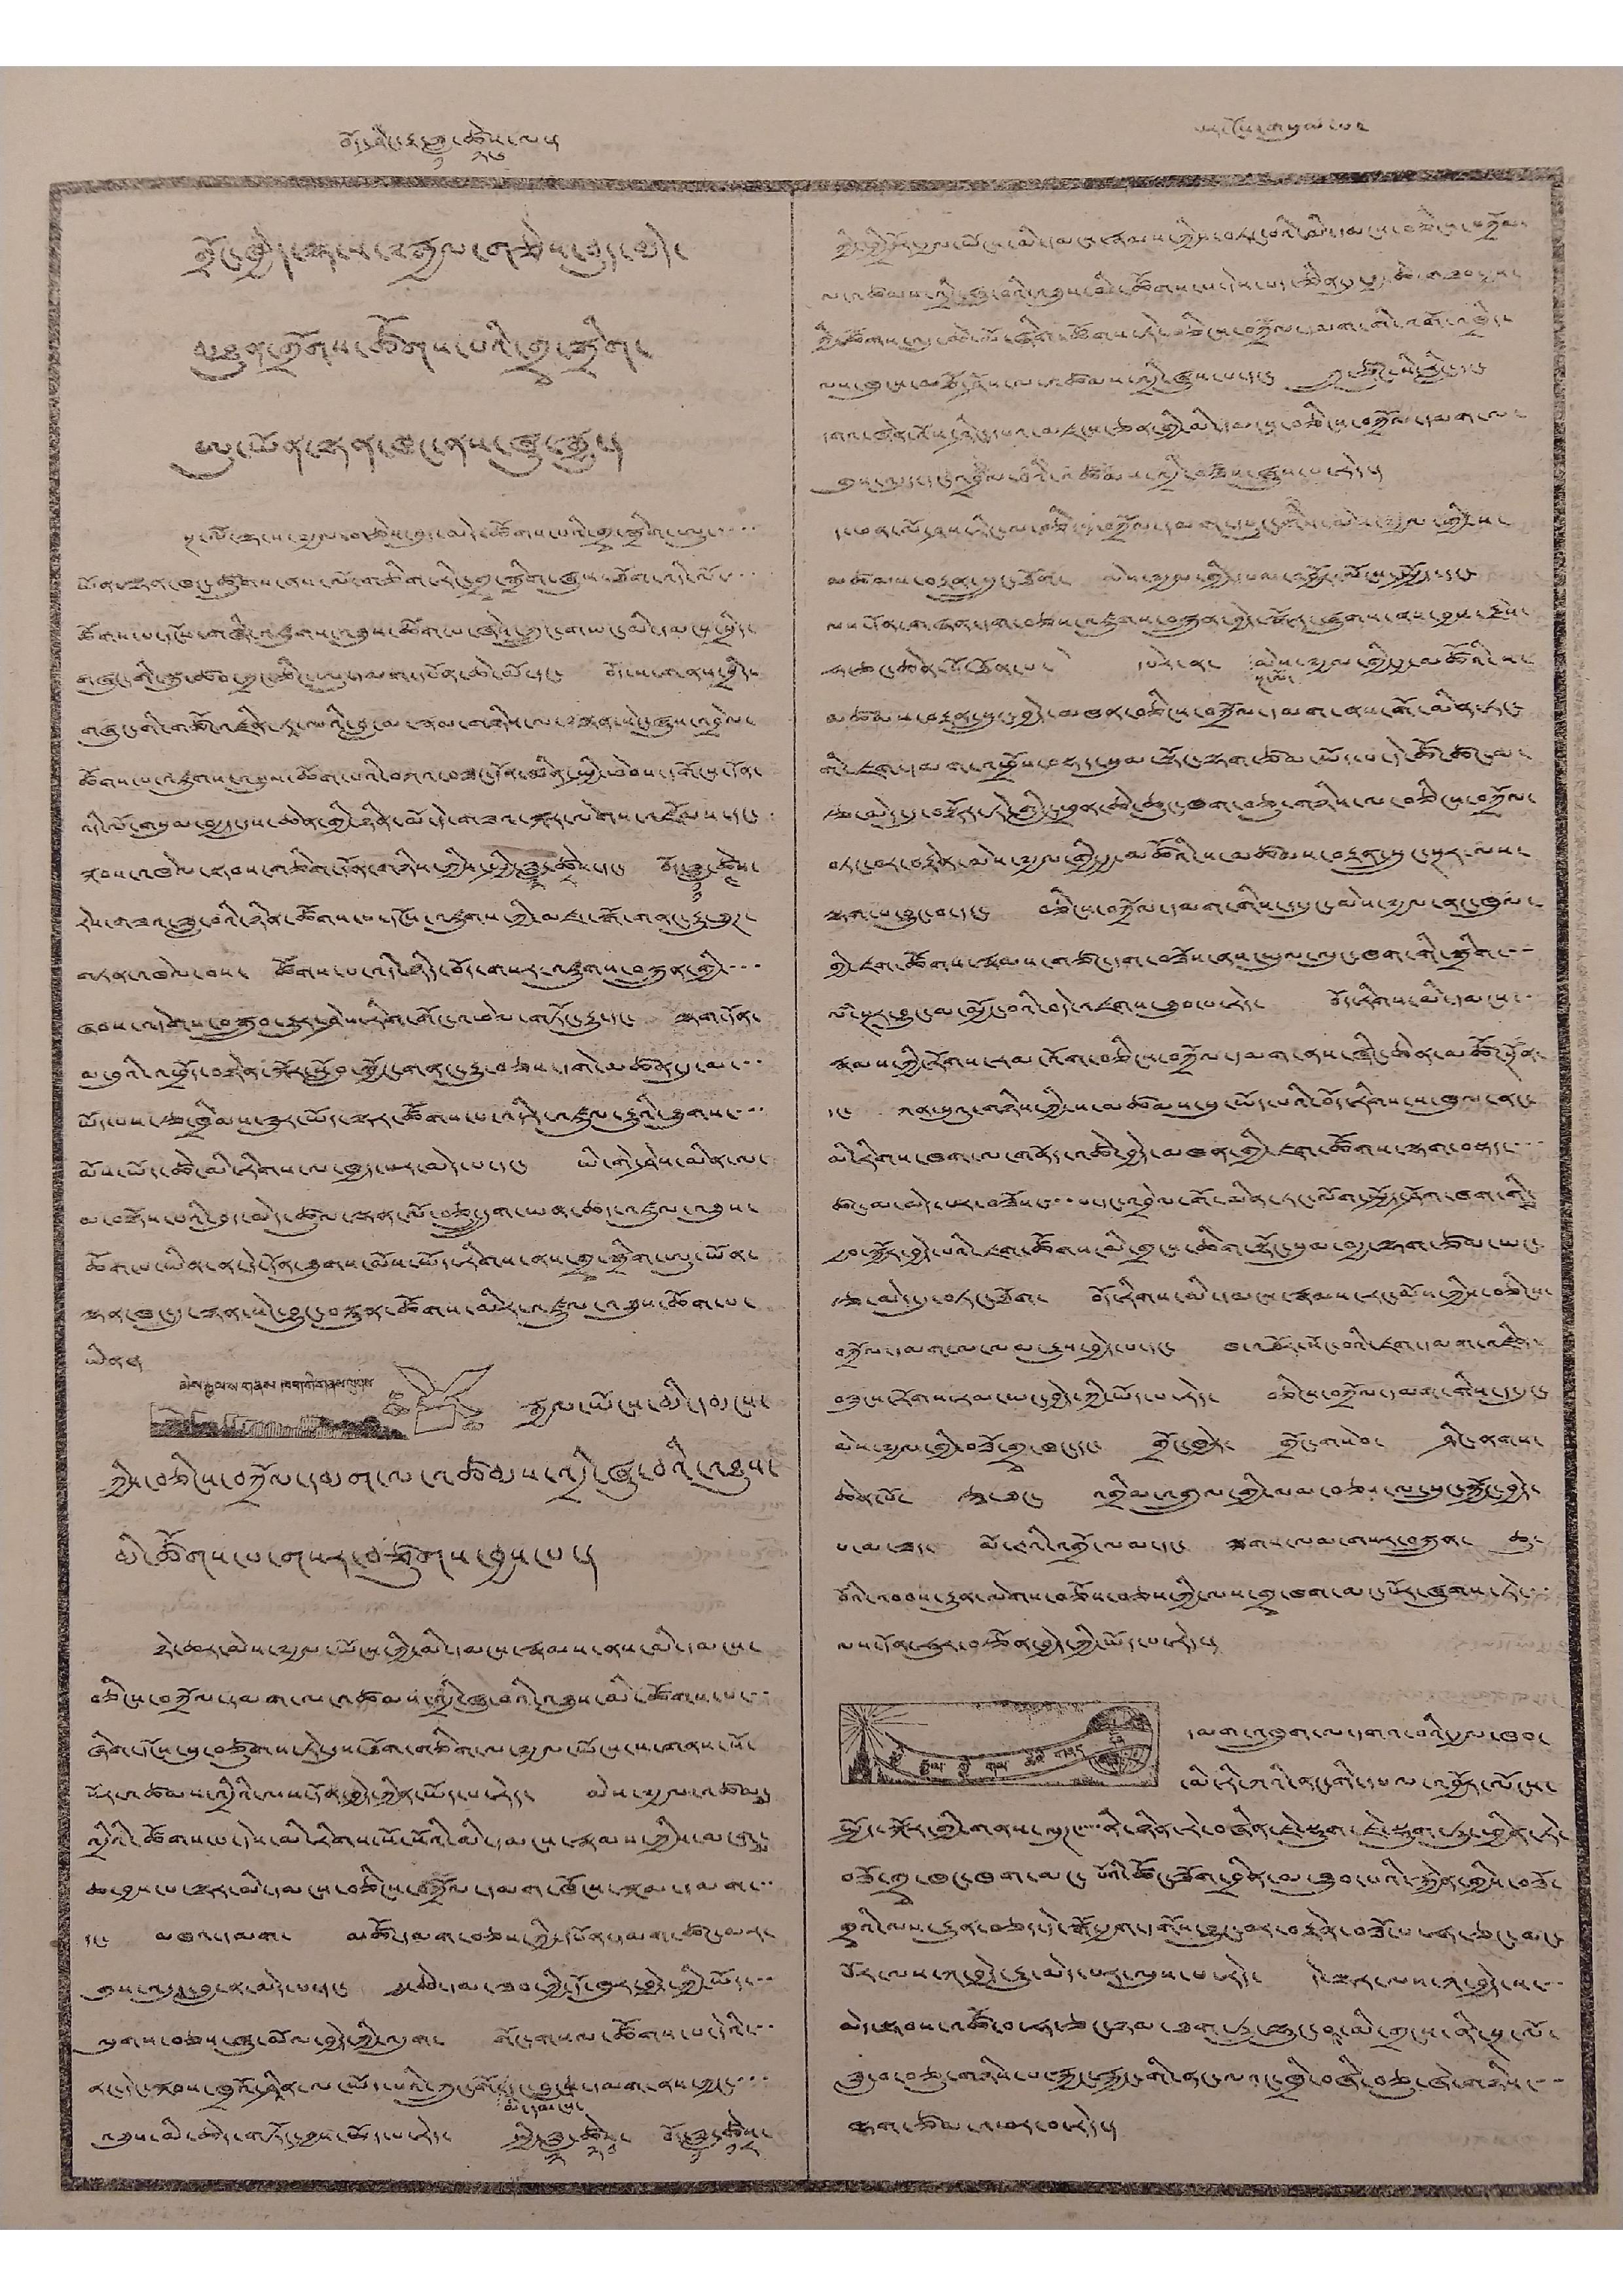བོད་ཤིང་རྟ་ཟླ་
༡
ཚེས་
༢༦
ལ་། པར་ངོས་གསུམ་པ་
གྲོང་ཁྱེར་ལྷ་ས་༸རྒྱལ་གཅེས་བུད་མེད་
མཐུན་གྲོགས་ཚོགས་པའི་གྲྭ་སྒྲིག་
ཨུ་ཡོན་ལྷན་ཁང་ནས་ཞུ་རྒྱུ་།
སྔ་ལོ་ལྷ་ས་༸རྒྱལ་གཅེས་བུད་མེད་ཚོགས་པའི་གྲྭ་སྒྲིག་ཨུ་་་་་
ཡོན་ལྷན་ཁང་ཚུགས་ནས་ལོ་གཅིག་རིང་གྲྭ་སྒྲིག་ཞུས་ཐོག་འདི་ལོ་་་་
ཚོགས་པ་དངོས་གཞི་འཛུགས་མཐུས་ཚོག་པ་ཞེས་ཀྲུང་གཡང་མི་དམངས་སྲིད་
གཞུང་གི་སྐུ་ཚབ་ཀྲང་ཅིང་ཨུ་དམག་དཔོན་ཆེ་མོ་དང་ བོད་ས་གནས་སྲིད་
གཞུང་གི་གཙོ་འཛིན་ཏཱ་ལའི་བླ་མ་རྣམ་གཉིས་ལ་སྙན་སེང་ཞུས་འབྲེལ་
ཚོགས་པ་འཛུགས་འཐུལ་ཚོག་པའི་བཀའ་དོན་མིན་སྤྱི་ཕེབས་དགོངས་དོན་
འདི་ལོ་གསུམ་བརྒྱད་དུས་ཆེན་གྱི་ཉིན་མོ་དེ་གཟའ་སྐར་ལེགས་འཛོམས་དང་ ་
སྐབས་འཁེལ་སྟབས་གཅིག་དོན་གཉིས་ཀྱིས་སྤྱི་ཟླ་
༣
ཚེས་
༨
དང་ བོད་ཟླ་
༡༡
ཚེས་
༤
རེས་གཟའ་ཟླ་བའི་ཉིན་ཚོགས་པ་དངོས་འཛུགས་ཀྱི་མཛད་སྒོ་གནང་རྒྱུ་ཐུཊ་
གཏན་འཁེལ་བས་ ཚོགས་པ་འདི་ཉིད་བོད་གསར་འཛུགས་བསྐྲུན་གྱི་་་་
ཞབས་འདེགས་བསྒྲུབས་རྒྱུར་ཤེས་རིག་གོང་འཕེལ་གཏོང་རྒྱུ་དང་ ལྷག་དོན་
མ་བུའི་འཕྲོད་བརྟེན་སྐོར་སློབ་སྦྱོང་གནང་རྒྱུ་བཅས་དགེ་མཚན་དུ་མ་་་
ཡོད་པས་རྩ་ཁྲིམས་ཟུར་ཡོད་ལྟར་ཚོགས་པ་འདིར་འཛུལ་རྒྱུའི་ཐུགས་་་་
མོས་ཡོད་ཚེ་མི་རིགས་ལ་ཁྱད་པར་མེད་པ་དང་ ཡི་གེ་ཤེས་མིན་ལ་
མ་བལྟོས་པའི་བུད་མེད་ཚུལ་ལྡན་པོ་བཅུ་དྲུག་ཡན་ཆད་འཛུལ་འཐུས་
ཆོག་པ་ཡིན་ན་དེ་དོན་ཐུགས་མོས་ཡོད་རིགས་ནས་གྲྭ་སྒྲིག་ཨུ་ཡོན་
ལྷན་ཁང་དུ་སྙན་སེང་བྱུང་བསྟུན་ཚོགས་མིར་འཛུལ་འཐུས་ཆོག་པ་
ཡིན་།
མེས་རྒྱལ་ས་གནས་ཁག་གི་གནས་ལུགས་
རྒྱལ་ཡོངས་མི་དམངས་
ཀྱིས་བཅིངས་བཀྲོལ་དམག་ལ་འཚམ་འདྲི་ཞུ་བའི་འཐུས་
མི་ཚོགས་པ་གསར་བཙུགས་བྱས་པ་།
ཉེ་ཆར་མེས་༸རྒྱལ་ཡོངས་ཀྱི་མི་དམངས་རྣམས་ནས་མི་དམངས་
བཅིངས་བཀྲོལ་དམག་ལ་འཚམ་འདྲི་ཞུ་བའི་འཐུས་མི་ཚོགས་པ་་་
ཞིག་དངོས་སུ་བཙུགས་ཏེ་དུས་ཐོག་གཅིག་ལ་༸རྒྱལ་ཡོངས་ས་གནས་སོ་
སོར་འཚམས་འདྲིའི་ལས་དོན་བྱེད་ཀྱིན་ཡོད་པ་རེད་ མེས་༸རྒྱལ་འཚམས་
འདྲིའི་ཚོགས་པ་དེས་མི་རིགས་སོ་སོའི་མི་དམངས་རྣམས་ཀྱིས་མངགས་
ཆ་བྱས་པ་ལྟར་མི་དམངས་བཅིངས་བཀྲོལ་དམག་ཁོངས་སྐམ་དམག་་་
དང་ མཁའ་དམག་ མཚོ་དམག་བཅས་ཀྱི་དཔོན་དམག་ཚང་མར་
གུས་འདུད་བླ་ན་མེད་པ་དང་ རྒྱ་ཆེ་མ་ཟབ་ཀྱི་དོ་ཁུར་བྱེད་ཀྱི་ཡོད་་་
ལུགས་བཅས་ཤུ་མོལ་བཡེད་ཀྱི་འདུག་ གོང་གསལ་ཚོགས་པ་དེའི་་་
ནང་དེང་སྐབས་ཁྲའོ་ཤྰིན་ལ་ཡོད་པའི་ཀྲུང་གོ་
མི་དམངས་
དང་བླང་དམག་ནས་ཀྱང་་་་
འཐུས་མི་ཆེད་གཏོང་ཡོད་པ་རེད་ སྤྱི་ཟླ་
༢
ཚེས་
༢
བོད་ཟླ་
༡
ཚེས་
༡༨
ཀྱི་སྤྱི་དོན་རྒྱལ་ཡོང་མི་དམངས་རྣམས་ཀྱིས་བཏང་བའི་མི་དམངས་བཅིངས་བཀྲོལ་
ལ་འཚམས་འདྲི་ཞུ་བའི་འཐུས་མི་ཚོགས་པ་དེས་པད་ཅིང་དུ་རྒྱ་ཆེ་འཐབ་བྱས་
ཀྱི་ཚོགས་འདུ་ཆེན་པོ་ཞིག་ཚོགས་ཏེ་བཅིངས་བཀྲོལ་དམག་གི་འགོ་འཁྲིད་
ལས་ཁུངས་མཐོ་ཤོས་ལ་མཚམས་འདྲི་ཞུས་པ་དང་ ཀྲུ་ཙུཊ་སི་རླིང་དང་
དགའ་ཞེན་འོས་ཤིང་དཔའ་མཛངས་ཅན་གྱི་མི་དམངས་བཅིངས་བཀྲོལ་དམག་ལ་
གུས་འདུད་དང་འབྲེལ་བའི་འཚམས་འདྲི་བཅས་ཞུས་པ་རེད་།
ད་ཕན་ལོ་ཤས་རིང་ལ་བཅིངས་བཀྲོལ་དམག་དཔུང་གིས་མེས་༸རྒྱལ་གྱི་ས་
མཚམས་བརྟན་སྲུང་ཐོག་ མེས་༸རྒྱལ་གྱི་དཔལ་འབྱོར་ལོངས་སྤྱོད་དང་
ལས་དོན་གཞན་དག་བཅས་འཛུགས་བསྐྲུན་བྱེད་སྒོར་ཞུགས་ནས་བྱས་རྗེས་
ཧ་ཅང་ཆེན་པོ་ཐོན་པ་ དཔེར་ན་
སྔ་ལོ་
མེས་༸རྒྱལ་གྱི་རྒྱ་མཚོའི་ས་
མཚམས་བརྟན་སྲུང་བྱེད་མཁན་བཅིངས་བཀྲོལ་དམག་ནས་གོ་མིན་ཏང་
གི་ཇག་དམག་འཕྲོས་བསྡད་སུམ་སྟོང་ལྷག་ཙམ་ཡོད་པ་དེ་ཚོ་ཚང་མ་
རྩ་མེད་དུ་བསྟོར་ཏེ་གླིང་ཕྲན་ཆེ་ཆུང་ཁག་བཅུ་གཉིས་ལ་བཅིངས་བཀྲོལ་
བཏང་བར་བརྟེན་མེས་༸རྒྱལ་གྱི་རྒྱ་མཚོའི་ས་མཚམས་བརྟན་སྲུང་སྔར་ལས་
ལྷག་པ་བྱུང་བ་དང་ བཅིངས་བཀྲོལ་དམག་གིས་ད་དུང་མེས་༸རྒྱལ་ནང་ཁུལ་
གྱི་ཇག་ཚོགས་རྣམས་གཙང་དག་བཟོས་ནས་ཡུལ་ལུང་ཁག་གི་སྒྲིག་་་
ལཾ་སྔར་བྱུང་མ་མྱོང་བའི་བདེ་འཇགས་ཐུབ་ཨོ་རེད་ བོད་རིགས་མི་དམངས་་
རྣམས་ཀྱི་རོགས་རམ་འོག་བཅིངས་བཀྲོལ་དམག་ནས་ཞིང་ཆེན་མཚོ་སྔོན་
དང་ ཀན་སུའུ་གཉིས་ཀྱི་ས་མཚམས་སུ་ཡོད་པའི་བོད་རིགས་ས་ཁུལ་ནང་
མི་རིགས་ཁག་ལ་གནོད་འཚེ་བྱེད་མཁན་གྱི་ཇག་ཚོགས་ལྷག་བསྡད་་་་
ཚང་མ་མེད་པར་བཟོས་་་་པ་དང་འབྲེལ་གོ་མིན་ཏང་ལོག་སྤྱོད་ཤོག་ཁག་གིས་
རྒྱབ་སྐྱོར་བྱེད་པའི་ཇག་ཚོགས་མི་གྲངས་ཆིག་སྟོང་སུམ་བརྒྱ་ལྷག་ཙམ་ཡང་
རྩ་མེད་དུ་བཏང་ཐོག་ བོད་རིགས་མི་དམངས་རྣམས་རང་མོས་ཀྱིས་བཅིངས་
བཀྲོལ་དམག་ལ་ལམ་རྒྱུས་བྱེད་པ་དང་ ཁ་ཐོར་སོང་བའི་ཇག་དམག་འཛིན་
བཟུངས་རོགས་རམ་ཡང་བྱེད་ཀྱི་ཡོད་པ་རེད་ བཅིངས་བཀྲོལ་དམག་གིས་ད་དུང་
མེས་༸རྒྱལ་གྱི་བཟོ་གྲྭ་ཁང་དང་ གྲོང་ཁྱེར་ གྲོང་གསེབ་ ཤིང་ནགས་
ཆེན་པོ་ རྩ་ཐང་ འགྲིམ་འགྲུལ་གྱི་ལམ་བཅས་ལ་སྲུང་སྐྱོང་བྱེད་
པ་མ་ཟད་ མོ་ཊྲའི་འགྲོ་ལམ་དང་ ལྕགས་ལམ་གསར་བསྐྲུན་ ཆུ་
བོའི་འབབས་རྒྱུན་ལེགས་བཅོས་བཅས་ཀྱི་ལས་གྲྭ་ཁག་མང་པོར་ཞུགས་ཏེ་་་
ལས་དོན་ཧུར་བརྩོན་བྱེད་ཀྱི་ཡོད་པ་རེད་།
ཕྱི་རྒྱལ་གྱི་གལ་ཆེའི་གནད་དོན་
དམག་འཁྲུག་ལ་དགའ་བའི་རྒྱལ་ཁབ་
་མི་རི་ཀའི་ནང་གི་དཔལ་འབྱོར་ལོངས་
སྤྱོད་སྐོར་གྱི་གནས་ལུཊ་་་་་ནི་ཉིན་རེ་བཞིན་ཇེ་སྡུག་ཇེ་སྡུག་ཏུ་ཕྱིན་ཏེ་
བཟོ་གྲྭ་ཁང་ཁག་མང་པོའི་ཚོང་ཟོག་བྲིན་མ་ཐུབ་པའི་རྐྱེན་གྱིས་བཟོ་
གྲྭའི་ལས་རྒྱུན་བཅད་དེ་སྒོ་རྒྱག་དགོས་བྱུང་བར་བརྟེན་བཟོ་པ་ཧ་ཅང་མང་
པོར་ལས་ཀ་བྱེད་རྒྱུ་མེད་པར་ལུས་པ་རེད་ དེ་ལྟར་ལས་ཀ་བྱེད་ས་་་
མེདསཏབས་འཚོ་བ་ཧ་ཅང་ཉམ་ཐག་ཏུ་ལྷུང་བ་མི་གྲངས་ནི་སྔ་ལོ་
ཟླ་བ་བཅུ་གཉིས་པ་རྐྱང་རྐྱང་གི་ནང་ལའང་ཁྲི་བཞི་བཅུ་ཞེ་གཉིས་་་
ལྷག་ཙམ་འཕར་བ་རེད་།
